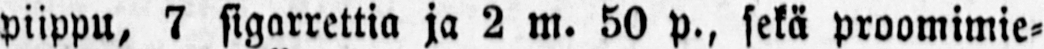piippu, 7 sigarrettia ja 2 m. 50 p., sekä proomimie-
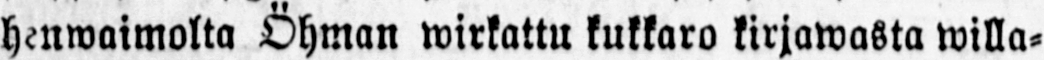heniwaimolta Öhman wirkattu kukkaro kirjawasta willa-
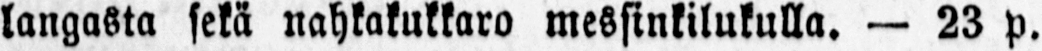langasta sekä nahkakukkaro messinkilukulla. — 23 p.
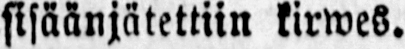sisäänjätettiin kirwes.
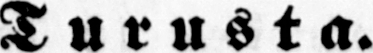Turusta.
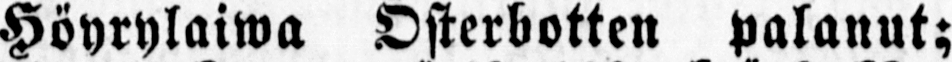Höyrylaiwa Österbotten palanut;
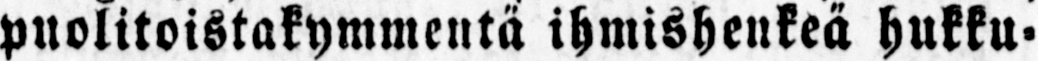puolitoistakymmentä ihmishenkeä hukku
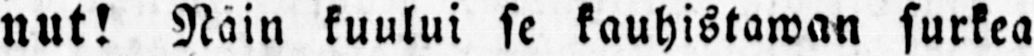nut! Näin kuului se kauhistawan surkea
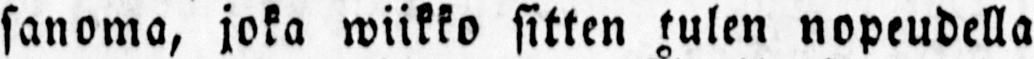sanoma, joka wiikko sitten tulen nopeudella
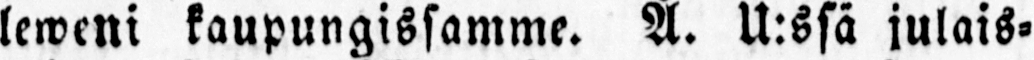leweni kaupungissamme. A. U:ssä julais-
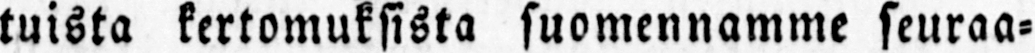tuista kertomuksista suomennamme seuraa-
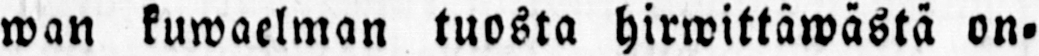man kuwaelman tuosta hirwittäwästä on-
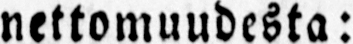nettomuudesta:
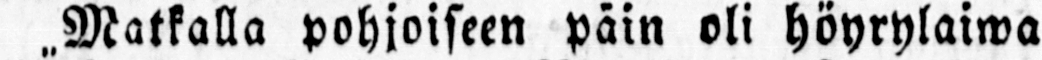˶Matkalla pohjoiseen päin oli höyrylaiwa
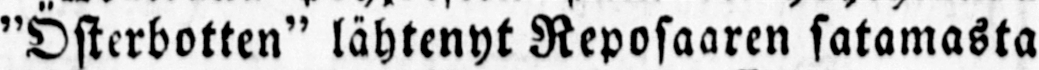"Österbotten" lähtenyt Reposaaren satamasta
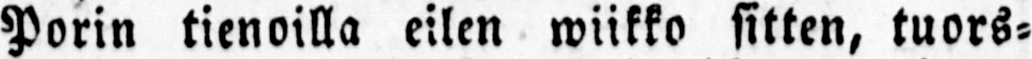Porin tienoilla eilen wiikko sitten, tuors-
